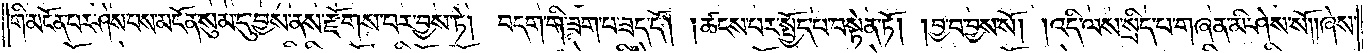གི་མངོན་པར་ཤེས་པས་མངོན་སུམ་དུ་བྱས་ནས་རྫོགས་པར་བྱས་ཏེ། བདག་གི་ཟག་པ་ཟད་དོ། །ཚངས་པར་སྤྱོད་པ་བསྟེན་ཏོ། །བྱ་བ་བྱས་སོ། །འདི་ལས་སྲིད་པ་གཞན་མི་ཤེས་སོ། །ཞེས་
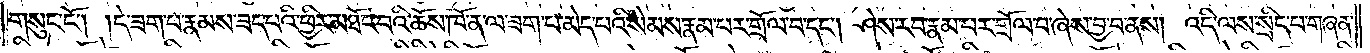གསུང་ངོ༌། །དེ་ཟག་པ་རྣམས་ཟད་པའི་ཕྱིར་མཐོང་བའི་ཆོས་ཁོ་ན་ལ་ཟག་པ་མེད་པའི་སེམས་རྣམ་པར་གྲོལ་བ་དང༌། ཤེས་རབ་རྣམ་པར་གྲོལ་བ་ཞེས་བྱ་བ་ནས། འདི་ལས་སྲིད་པ་གཞན་
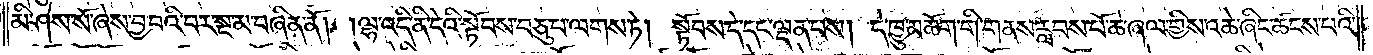མི་ཤེས་སོ་ཞེས་བྱ་བའི་བར་སྔ་མ་བཞིན་ནོ། །ལྷ་འདི་ནི་དེའི་སྟོབས་བཅུ་པ་ལགས་ཏེ། སྟོབས་དེ་དང་ལྡན་པས། དེ་ཁྱུ་མཆོག་གི་གནས་རླབས་པོ་ཆེ་ཞལ་གྱིས་འཆེ་ཞིང་ཚངས་པའི་
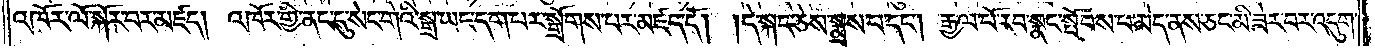འཁོར་ལོ་སྐོར་བར་མཛད། འཁོར་གྱི་ནང་དུ་སེང་གེའི་སྒྲ་ཡང་དག་པར་སྒྲོགས་པར་མཛད་དོ། །དེ་སྐད་ཅེས་སྨྲས་པ་དང༌། རྒྱལ་པོ་རབ་སྣང་སྤོབས་པ་མེད་ནས་ཅང་མི་ཟེར་བར་འདུག་
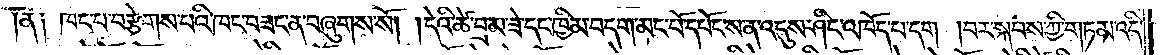ན༑ ཁང་པ་བརྩེགས་པའི་ཁང་བཟང་ན་བཞུགས་སོ། །དེའི་ཚེ་བྲམ་ཟེ་དང་ཁྱིམ་བདག་མང་པོ་དཔོང་ས་ན་འདུས་ཤིང་འཁོད་པ་དག །བར་སྐབས་ཀྱི་གཏམ་འདི་
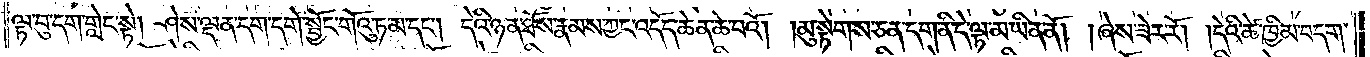ལྟ་བུ་དག་གླེང་སྟེ། ཤེས་ལྡན་དག་དགེ་སྦྱོང་གོའུ་ཏམ་དང༌། དེའི་ཉན་ཐོས་རྣམས་ཀྱང་འདོད་ཆེན་ཆེ་བའོ། །མུ་སྟེགས་ཅན་དག་ནི་དེ་ལྟ་མ་ཡིན་ནོ། །ཞེས་ཟེར་རོ། །དེའི་ཚེ་ཁྱིམ་བདག་
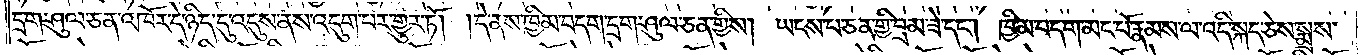དྲག་ཤུལ་ཅན་འཁོར་དེ་ཉིད་དུ་འདུས་ནས་འདུག་པར་གྱུར་ཏོ། །དེ་ནས་ཁྱིམ་བདག་དྲག་ཤུལ་ཅན་གྱིས། ཡངས་པ་ཅན་གྱི་བྲམ་ཟེ་དང༌། ཁྱིམ་བདག་མང་པོ་རྣམས་ལ་འདི་སྐད་ཅེས་སྨྲས་
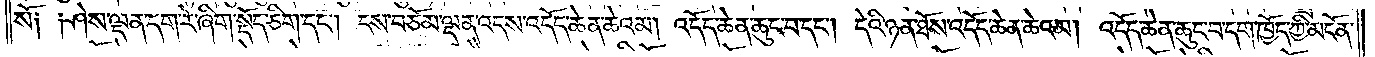སོ༑ ༑ཤེས་ལྡན་དག་རེ་ཞིག་སྡོད་ཅིག་དང༌། ངས་བཅོམ་ལྡན་འདས་འདོད་ཆེན་ཆེའམ། འདོད་ཆེན་ཆུང་བ་དང༌། དེའི་ཉན་ཐོས་འདོད་ཆེན་ཆེའམ། འདོད་ཆེན་ཆུང་བ་དག་ཁྱོད་ཀྱི་མངོན་
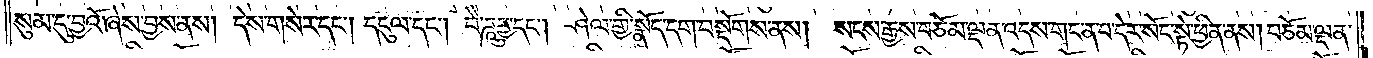སུམ་དུ་བྱའོ་ཞེས་བྱས་ནས། དེས་གསེར་དང༌། དངུལ་དང༌། བཻ་ཌཱུཪྻ་དང༌། ཤེལ་གྱི་སྣོད་དག་བསྡོགས་ནས། སངས་རྒྱས་བཅོམ་ལྡན་འདས་གང་ན་བ་དེར་སོང་སྟེ་ཕྱིན་ནས། བཅོམ་ལྡན་
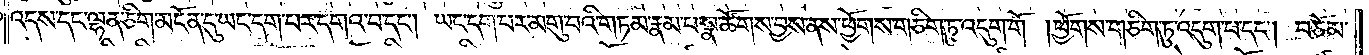འདས་དང་ལྷན་ཅིག་མངོན་དུ་ཡང་དག་པར་དགའ་བ་དང༌། ཡང་དག་པར་མགུ་བའི་གཏམ་རྣམ་པ་སྣ་ཚོགས་བྱས་ནས་ཕྱོགས་གཅིག་ཏུ་འདུག་གོ། །ཕྱོགས་གཅིག་ཏུ་འདུག་པ་དང༌། བཅོམ་
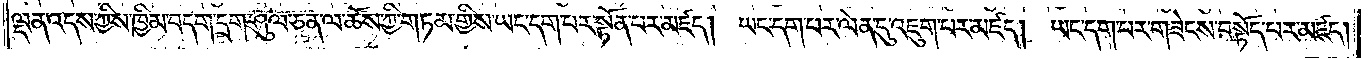ལྡན་འདས་ཀྱིས་ཁྱིམ་བདག་དྲག་ཤུལ་ཅན་ལ་ཆོས་ཀྱི་གཏམ་གྱིས་ཡང་དག་པར་སྟོན་པར་མཛད། ཡང་དག་པར་ལེན་དུ་འཇུག་པར་མཛད། ཡང་དག་པར་གཟེངས་བསྟོད་པར་མཛད།
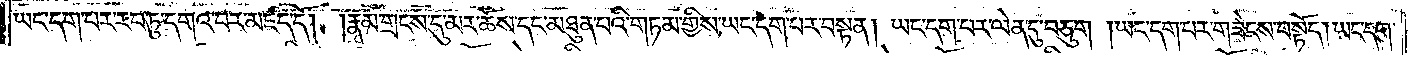ཡང་དག་པར་རབ་ཏུ་དགའ་བར་མཛད་དོ། །རྣམ་གྲངས་དུ་མར་ཆོས་དང་མཐུན་པའི་གཏམ་གྱིས་ཡང་དག་པར་བསྟན། ཡང་དག་པར་ལེན་དུ་བཅུག །ཡང་དག་པར་གཟེངས་བསྟོད། ཡང་དག་
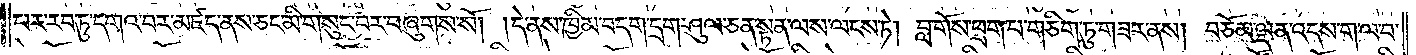པར་རབ་ཏུ་དགའ་བར་མཛད་ནས་ཅང་མི་གསུང་བར་བཞུགས་སོ། །དེ་ནས་ཁྱིམ་བདག་དྲག་ཤུལ་ཅན་སྟན་ལས་ལངས་ཏེ། བླ་གོས་ཕྲག་པ་གཅིག་ཏུ་གཟར་ནས། བཅོམ་ལྡན་འདས་ག་ལ་བ་
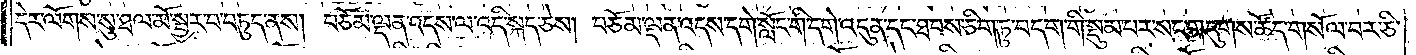དེར་ལོགས་སུ་ཐལ་མོ་སྦྱར་བ་བཏུད་ནས། བཅོམ་ལྡན་འདས་ལ་འདི་སྐད་ཅེས། བཅོམ་ལྡན་འདས་དགེ་སློང་གི་དགེ་འདུན་དང་ཐབས་ཅིག་ཏུ་བདག་གི་སྡུམ་པར་སང་གདུགས་ཚོད་གསོལ་བར་ཅི་
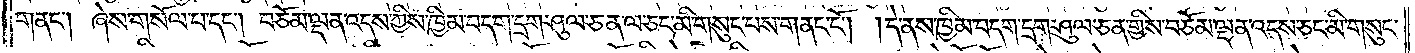གནང༌། ཞེས་གསོལ་པ་དང༌། བཅོམ་ལྡན་འདས་ཀྱིས་ཁྱིམ་བདག་དྲག་ཤུལ་ཅན་ལ་ཅང་མི་གསུང་པས་གནང་ངོ༌། །དེ་ནས་ཁྱིམ་བདག་དྲག་ཤུལ་ཅན་གྱིས་བཅོམ་ལྡན་འདས་ཅང་མི་གསུང་
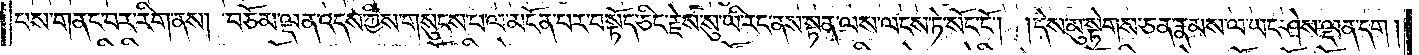བས་གནང་བར་རིག་ནས། བཅོམ་ལྡན་འདས་ཀྱིས་གསུངས་པ་ལ་མངོན་པར་བསྟོད་ཅིང་རྗེས་སུ་ཡི་རང་ནས་སྟན་ལས་ལངས་ཏེ་སོང་ངོ༌། །དེས་མུ་སྟེགས་ཅན་རྣམས་ལ་ཡང་ཤེས་ལྡན་དག།
